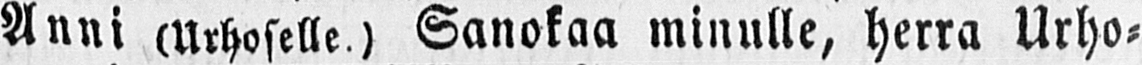Anni (Urhoselle.) Sanokaa minulle, herra Urho-
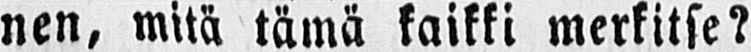nen, mitä tämä kaikki merkitse?
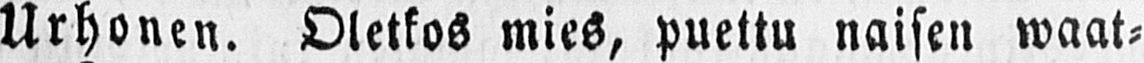Urhonen. Oletkos mies, puettu naisen waat-
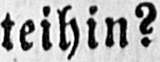teihin?
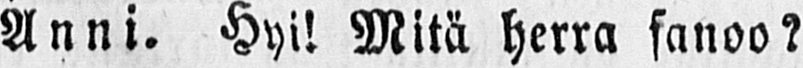Anni. Hyi! Mitä herra sanoo?
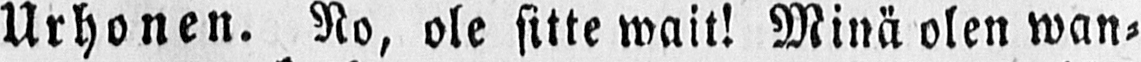Urhonen. No, ole sitte wait! Minä olen wan-
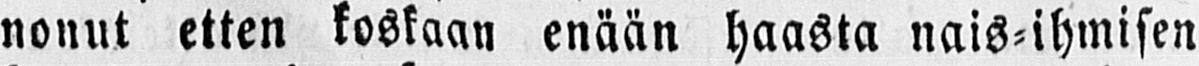nonut etten koskaan enään haasta nais-ihmisen
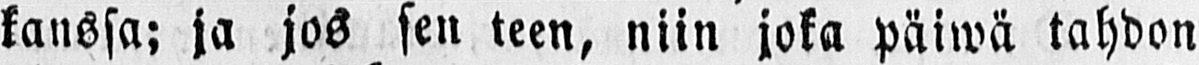kanssa: ja jos sen teen, niin joka päiwä tahdon
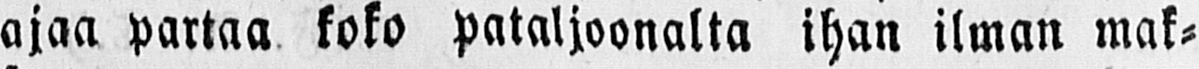ajaa partaa koko pataljoonalta ihan ilman mak-
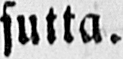sutta.
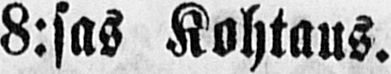8:sas Kohtaus.
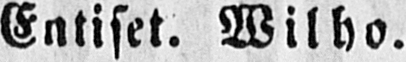Entiset. Wilho.
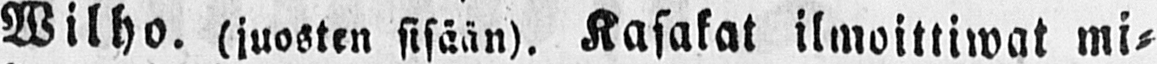Wilho, (juosten sisään). Kasakat ilmoittiwat mi-
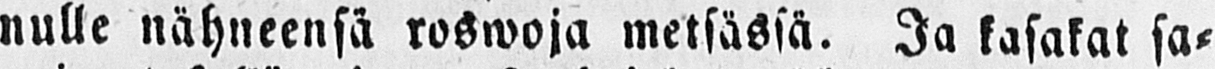nulle nähneensä roswoja metsässä. Ja kasakat sa-
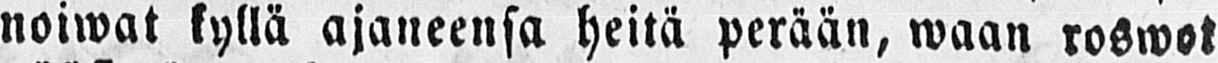noiwat kyllä ajaneensa heitä perään, waan roswot
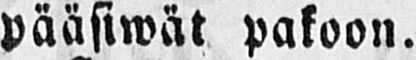pääsiwät pakoon.
